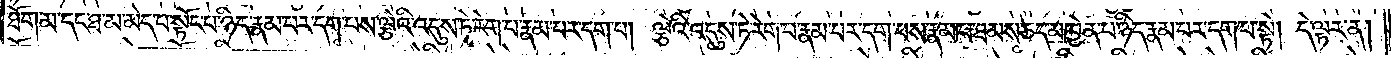ཐོག་མ་དང་ཐ་མ་མེད་པ་སྟོང་པ་ཉིད་རྣམ་པར་དག་པས་ལྕེའི་འདུས་ཏེ་རེག་པ་རྣམ་པར་དག་པ། ལྕེའི་འདུས་ཏེ་རེག་པ་རྣམ་པར་དག་པས་རྣམ་པ་ཐམས་ཅད་མཁྱེན་པ་ཉིད་རྣམ་པར་དག་པ་སྟེ། དེ་ལྟར་ན།
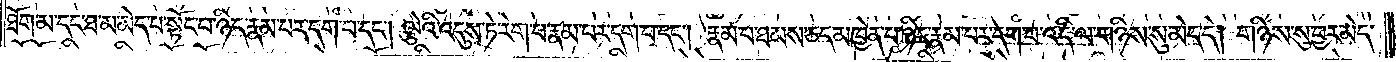ཐོག་མ་དང་ཐ་མ་མེད་པ་སྟོང་པ་ཉིད་རྣམ་པར་དག་པ་དང༌། ལྕེའི་འདུས་ཏེ་རེག་པ་རྣམ་པར་དག་པ་དང༌། རྣམ་པ་ཐམས་ཅད་མཁྱེན་པ་ཉིད་རྣམ་པར་དག་པ་འདི་ལ་གཉིས་སུ་མེད་དེ། གཉིས་སུ་བྱར་མེད་
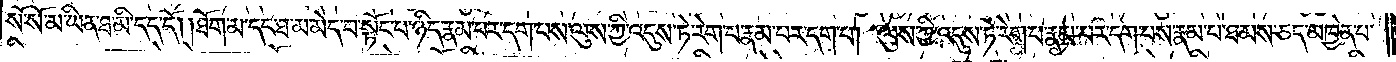སོ་སོ་མ་ཡིན་ཐ་མི་དད་དོ། །ཐོག་མ་དང་ཐ་མ་མེད་པ་སྟོང་པ་ཉིད་རྣམ་པར་དག་པས་ལུས་ཀྱི་འདུས་ཏེ་རེག་པ་རྣམ་པར་དག་པ། ལུས་ཀྱི་འདུས་ཏེ་རེག་པ་རྣམ་པར་དག་པས་རྣམ་པ་ཐམས་ཅད་མཁྱེན་པ་
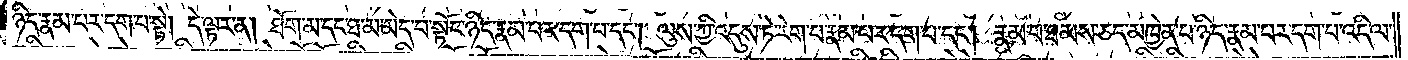ཉིད་རྣམ་པར་དག་པ་སྟེ། དེ་ལྟར་ན། ཐོག་མ་དང་ཐ་མ་མེད་པ་སྟོང་པ་ཉིད་རྣམ་པར་དག་པ་དང༌། ལུས་ཀྱི་འདུས་ཏེ་རེག་པ་རྣམ་པར་དག་པ་དང༌། རྣམ་པ་ཐམས་ཅད་མཁྱེན་པ་ཉིད་རྣམ་པར་དག་པ་འདི་ལ་
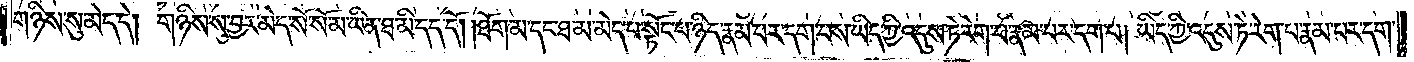གཉིས་སུ་མེད་དེ། གཉིས་སུ་བྱར་མེད་སོ་སོ་མ་ཡིན་ཐ་མི་དད་དོ། །ཐོག་མ་དང་ཐ་མ་མེད་པ་སྟོང་པ་ཉིད་རྣམ་པར་དག་པས་ཡིད་ཀྱི་འདུས་ཏེ་རེག་པ་རྣམ་པར་དག་པ། ཡིད་ཀྱི་འདུས་ཏེ་རེག་པ་རྣམ་པར་དག་
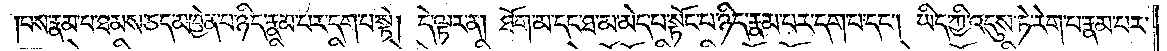པས་རྣམ་པ་ཐམས་ཅད་མཁྱེན་པ་ཉིད་རྣམ་པར་དག་པ་སྟེ། དེ་ལྟར་ན། ཐོག་མ་དང་ཐ་མ་མེད་པ་སྟོང་པ་ཉིད་རྣམ་པར་དག་པ་དང༌། ཡིད་ཀྱི་འདུས་ཏེ་རེག་པ་རྣམ་པར་
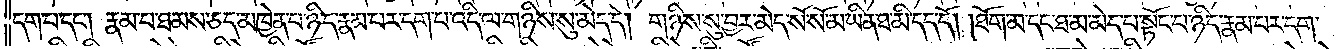དག་པ་དང༌། རྣམ་པ་ཐམས་ཅད་མཁྱེན་པ་ཉིད་རྣམ་པར་དག་པ་འདི་ལ་གཉིས་སུ་མེད་དེ། གཉིས་སུ་བྱར་མེད་སོ་སོ་མ་ཡིན་ཐ་མི་དད་དོ། །ཐོག་མ་དང་ཐ་མ་མེད་པ་སྟོང་པ་ཉིད་རྣམ་པར་དག་
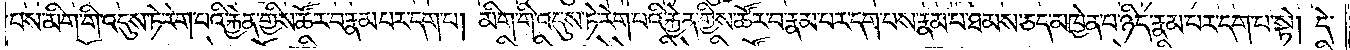པས་མིག་གི་འདུས་ཏེ་རེག་པའི་རྐྱེན་གྱིས་ཚོར་བ་རྣམ་པར་དག་པ། མིག་གི་འདུས་ཏེ་རེག་པའི་རྐྱེན་གྱིས་ཚོར་བ་རྣམ་པར་དག་པས་རྣམ་པ་ཐམས་ཅད་མཁྱེན་པ་ཉིད་རྣམ་པར་དག་པ་སྟེ། དེ་
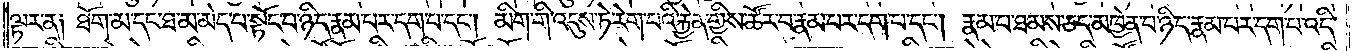ལྟར་ན༑ ཐོག་མ་དང་ཐ་མ་མེད་པ་སྟོང་པ་ཉིད་རྣམ་པར་དག་པ་དང༌། མིག་གི་འདུས་ཏེ་རེག་པའི་རྐྱེན་གྱིས་ཚོར་བ་རྣམ་པར་དག་པ་དང༌། རྣམ་པ་ཐམས་ཅད་མཁྱེན་པ་ཉིད་རྣམ་པར་དག་པ་འདི་
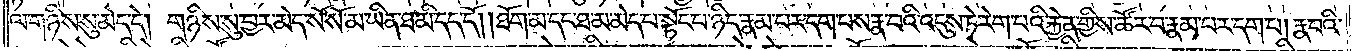ལ་གཉིས་སུ་མེད་དེ། གཉིས་སུ་བྱར་མེད་སོ་སོ་མ་ཡིན་ཐ་མི་དད་དོ། །ཐོག་མ་དང་ཐ་མ་མེད་པ་སྟོང་པ་ཉིད་རྣམ་པར་དག་པས་རྣ་བའི་འདུས་ཏེ་རེག་པའི་རྐྱེན་གྱིས་ཚོར་བ་རྣམ་པར་དག་པ། རྣ་བའི་
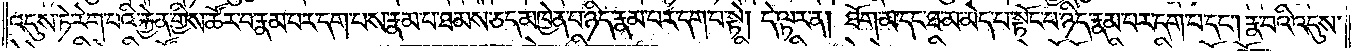འདུས་ཏེ་རེག་པའི་རྐྱེན་གྱིས་ཚོར་བ་རྣམ་པར་དག་པས་རྣམ་པ་ཐམས་ཅད་མཁྱེན་པ་ཉིད་རྣམ་པར་དག་པ་སྟེ། དེ་ལྟར་ན། ཐོག་མ་དང་ཐ་མ་མེད་པ་སྟོང་པ་ཉིད་རྣམ་པར་དག་པ་དང༌། རྣ་བའི་འདུས་
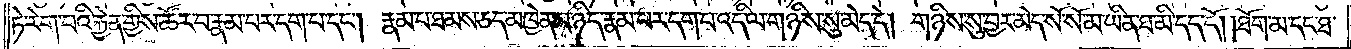ཏེ་རེག་པའི་རྐྱེན་གྱིས་ཚོར་བ་རྣམ་པར་དག་པ་དང༌། རྣམ་པ་ཐམས་ཅད་མཁྱེན་པ་ཉིད་རྣམ་པར་དག་པ་འདི་ལ་གཉིས་སུ་མེད་དེ། གཉིས་སུ་བྱར་མེད་སོ་སོ་མ་ཡིན་ཐ་མི་དད་དོ། །ཐོག་མ་དང་ཐ་
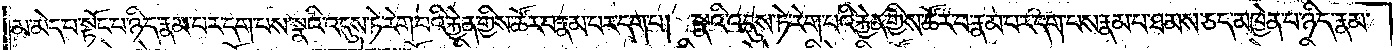མ་མེད་པ་སྟོང་པ་ཉིད་རྣམ་པར་དག་པས་སྣའི་འདུས་ཏེ་རེག་པའི་རྐྱེན་གྱིས་ཚོར་བ་རྣམ་པར་དག་པ། སྣའི་འདུས་ཏེ་རེག་པའི་རྐྱེན་གྱིས་ཚོར་བ་རྣམ་པར་དག་པས་རྣམ་པ་ཐམས་ཅད་མཁྱེན་པ་ཉིད་རྣམ་
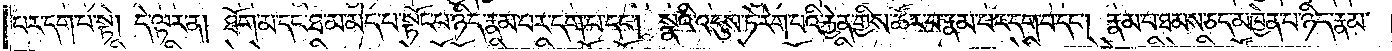པར་དག་པ་སྟེ། དེ་ལྟར་ན། ཐོག་མ་དང་ཐ་མ་མེད་པ་སྟོང་པ་ཉིད་རྣམ་པར་དག་པ་དང༌། སྣའི་འདུས་ཏེ་རེག་པའི་རྐྱེན་གྱིས་ཚོར་བ་རྣམ་པར་དག་པ་དང༌། རྣམ་པ་ཐམས་ཅད་མཁྱེན་པ་ཉིད་རྣམ་
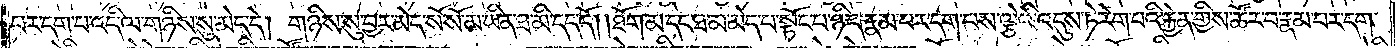པར་དག་པ་འདི་ལ་གཉིས་སུ་མེད་དེ། གཉིས་སུ་བྱར་མེད་སོ་སོ་མ་ཡིན་ཐ་མི་དད་དོ། །ཐོག་མ་དང་ཐ་མ་མེད་པ་སྟོང་པ་ཉིད་རྣམ་པར་དག་པས་ལྕེའི་འདུས་ཏེ་རེག་པའི་རྐྱེན་གྱིས་ཚོར་བ་རྣམ་པར་དག་
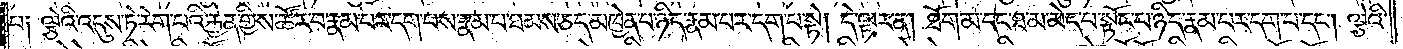པ༑ ལྕེའི་འདུས་ཏེ་རེག་པའི་རྐྱེན་གྱིས་ཚོར་བ་རྣམ་པར་དག་པས་རྣམ་པ་ཐམས་ཅད་མཁྱེན་པ་ཉིད་རྣམ་པར་དག་པ་སྟེ། དེ་ལྟར་ན། ཐོག་མ་དང་ཐ་མ་མེད་པ་སྟོང་པ་ཉིད་རྣམ་པར་དག་པ་དང༌། ལྕེའི་
